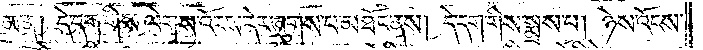མ་ན། དེ་དག་གིས་ལེགས་འོངས་དེར་ཞུགས་པ་མཐོང་ནས། དེ་དག་གིས་སྨྲས་པ། ཉེས་འོངས་
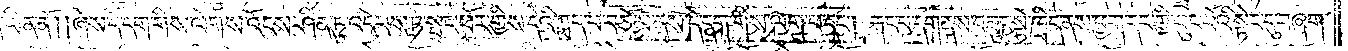ཡིན་ནོ། །ཞེས་དེ་དག་གིས་ལེགས་འོངས་ཤིན་ཏུ་འདེབས་ཏེ་སྤྲང་ཕོར་གྱིས་དེའི་ཀླད་པ་བཅོམ་ནས་དེ་དག་གིས་ལག་པ་དང༌། རྐང་པ་དག་ནས་བཟུང་སྟེ་ཁྲིད་ནས་ཕྱག་དར་གྱི་ཕུང་པོའི་སྟེང་དུ་བཞག་
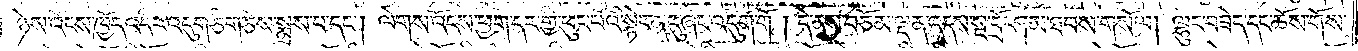ཉེས་འོངས་ཁྱོད་འདིར་འདུག་ཅིག་ཅེས་སྨྲས་པ་དང༌། ལེགས་འོངས་ཕྱག་དར་གྱི་ཕུང་པོའི་སྟེང་ན་ངུ་ཞིང་འདུག་གོ། དེ་ནས་བཅོམ་ལྡན་འདས་སྔ་དྲོ་ཤམ་ཐབས་གསོལ། ལྷུང་བཟེད་དང་ཆོས་གོས་
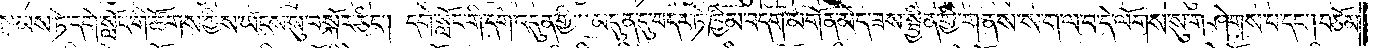བསྣམས་ཏེ་དགེ་སློང་གི་ཚོགས་ཀྱིས་ཡོངས་སུ་བསྐོར་ཅིང༌། དགེ་སློང་གི་དགེ་འདུན་གྱི་མདུན་དུ་བདར་ཏེ་ཁྱིམ་བདག་མགོན་མེད་ཟས་སྦྱིན་གྱི་གནས་ས་ག་ལ་བ་དེ་ལོགས་སུ་གཤེགས་པ་དང༌། བཅོམ་
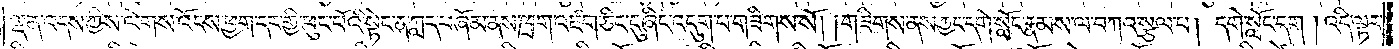ལྡན་འདས་ཀྱིས་ལེགས་འོངས་ཕྱག་དར་གྱི་ཕུང་པོའི་སྟེང་ན་ཀླད་པ་ཞོམ་ནས་ཁྲག་འཛག་ཅིང་ངུ་ཞིང་འདུག་པ་གཟིགས་སོ། །གཟིགས་ནས་ཀྱང་དགེ་སློང་རྣམས་ལ་བཀའ་སྩལ་པ། དགེ་སློང་དག །འདི་ལྟར་
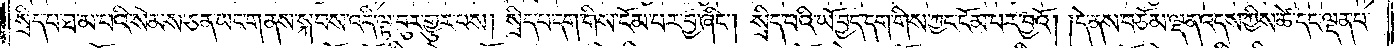སྲིད་པ་ཐ་མ་པའི་སེམས་ཅན་ཡང་གནས་སྐབས་འདི་ལྟ་བུར་གྱུར་པས། སྲིད་པ་དག་གིས་ངོམ་པར་བྱ་ཞིང༌། སྲིད་པའི་ཡོ་བྱད་དག་གིས་ཀྱང་ངོམ་པར་བྱའོ། །དེ་ནས་བཅོམ་ལྡན་འདས་ཀྱིས་ཚེ་དང་ལྡན་པ་
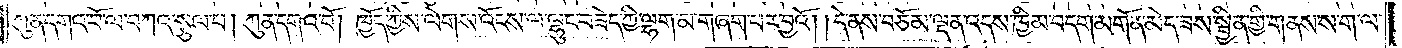ཀུན་དགའ་བོ་ལ་བཀའ་སྩལ་པ། ཀུན་དགའ་བོ། ཁྱོད་ཀྱིས་ལེགས་འོངས་ལ་ལྷུང་བཟེད་ཀྱི་ལྷག་མ་གཞག་པར་བྱའོ། །དེ་ནས་བཅོམ་ལྡན་འདས་ཁྱིམ་བདག་མགོན་མེད་ཟས་སྦྱིན་གྱི་གནས་ས་ག་ལ་
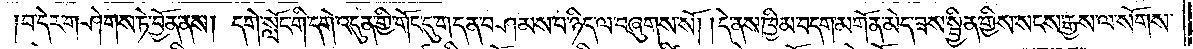བ་དེར་གཤེགས་ཏེ་བྱོན་ནས།  དགེ་སློང་གི་དགེ་འདུན་གྱི་གོང་དུ་གདན་བཤམས་པ་ཉིད་ལ་བཞུགས་སོ། །དེ་ནས་ཁྱིམ་བདག་མགོན་མེད་ཟས་སྦྱིན་གྱིས་སངས་རྒྱས་ལ་སོགས་
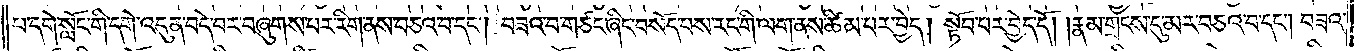པ་དགེ་སློང་གི་དགེ་འདུན་བདེ་བར་བཞུགས་པར་རིག་ནས་བཅའ་བ་དང་། བཟའ་བ་གཙང་ཞིང་བསོད་པས་རང་གི་ལག་ནས་ཚིམ་པར་བྱེད། སྟོབ་པར་བྱེད་དོ། །རྣམ་གྲངས་དུ་མར་བཅའ་བ་དང་། བཟའ་
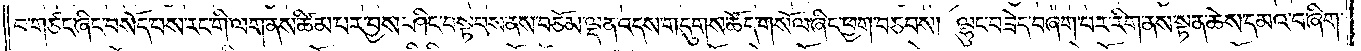བ་གཙང་ཞིང་བསོད་པས་རང་གི་ལག་ནས་ཚིམ་པར་བྱས་ཤིང་བསྟབས་ནས་བཅོམ་ལྡན་འདས་གདུགས་ཚོད་གསོལ་ཞིང་ཕྱག་བཅབས། ལྷུང་བཟེད་བཞག་པར་རིག་ནས་སྟན་ཆེས་དམའ་བ་ཞིག་
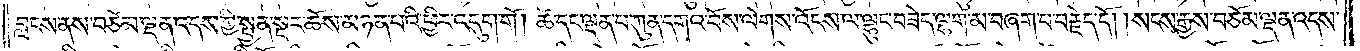བླངས་ནས་བཅོམ་ལྡན་འདས་ཀྱི་སྤྱན་སྔར་ཆོས་མཉན་པའི་ཕྱིར་འདུག་གོ། ཚེ་དང་ལྡན་པ་ཀུན་དགའ་བོས་ལེགས་འོངས་ལ་ལྷུང་བཟེད་ལྷག་མ་བཞག་པ་བརྗེད་དོ། །སངས་རྒྱས་བཅོམ་ལྡན་འདས་
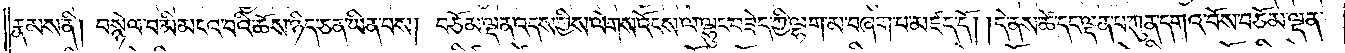རྣམས་ནི། བསྙེལ་བ་མི་མངའ་བའི་ཆོས་ཉིད་ཅན་ཡིན་པས། བཅོམ་ལྡན་འདས་ཀྱིས་ལེགས་འོངས་ལ་ལྷུང་བཟེད་ཀྱི་ལྷག་མ་བཞག་པ་མཛད་དོ། །དེ་ནས་ཚེ་དང་ལྡན་པ་ཀུན་དགའ་བོས་བཅོམ་ལྡན་
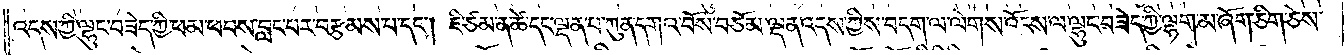འདས་ཀྱི་ལྷུང་བཟེད་ཀྱི་ཕམ་ཕབས་བླང་པར་བརྩམས་པ་དང་། ཇི་ཙམ་ན་ཚེ་དང་ལྡན་པ་ཀུན་དགའ་བོས་བཅོམ་ལྡན་འདས་ཀྱིས་བདག་ལ་ལེགས་འོངས་ལ་ལྷུང་བཟེད་ཀྱི་ལྷག་མ་ཞོག་ཅིག་ཅེས་
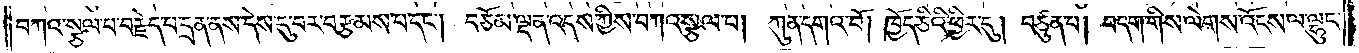བཀའ་སྩལ་པ་བརྗེད་པ་དྲན་ནས་དེས་དུ་བར་བརྩམས་པ་དང་།  བཅོམ་ལྡན་འདས་ཀྱིས་བཀའ་སྩལ་པ།  ཀུན་དགའ་བོ། ཁྱོད་ཅིའི་ཕྱིར་དུ། བཙུན་པ། བདག་གིས་ལེགས་འོངས་ལ་ལྷུང་
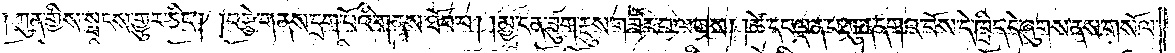ཀུན་གྱིས་སྤངས་གྱུར་ཅིང༌། །བརྩེ་གནས་དྲག་པོའི་གནས་ཐོབ་པ། །མྱ་ངན་ཟུག་རྔུས་གཟིར་བ་ལགས། །ཚེ་དང་ལྡན་པ་ཀུན་དགའ་བོས་དེ་ཁྲིད་དེ་ཞུགས་ནས་གསོལ་
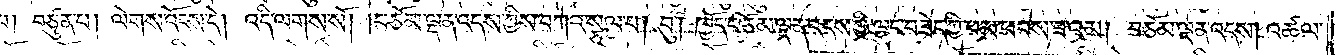པ། བཙུན་པ། ལེགས་འོངས་དེ། འདི་ལགས་སོ། །བཅོམ་ལྡན་འདས་ཀྱིས་བཀའ་སྩལ་པ། བུ། ཁྱོད་བཅོམ་ལྡན་འདས་ཀྱི་ལྷུང་བཟེད་ཀྱི་ཕམ་ཕབས་ཟ་འམ།  བཅོམ་ལྡན་འདས། འཚལ་
